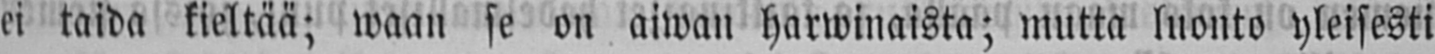ei taida kieltää; waan se on aiwan harwinaista; mutta luonto yleisesti
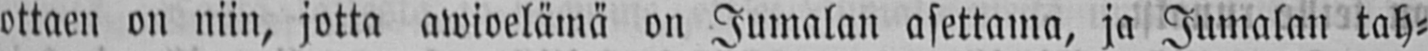ottaen on niin, jotta awioelämä on Jumalan asettama, ja Jumalan tah-
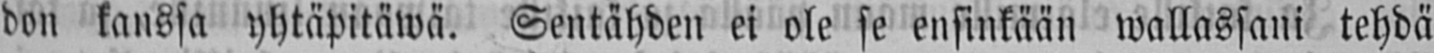don kanssa yhtäpitäwä. Sentähden ei ole se ensinkään wallassani tehdä
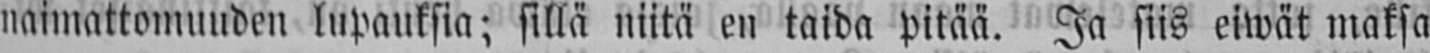naimattomuuden lupauksia; sillä niitä en taida pitää. Ja siis eiwät maksa
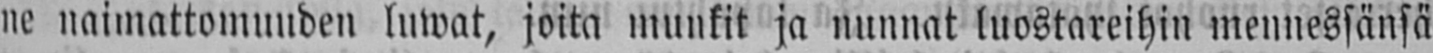ne naimattomuuden luwat, joita munkit ja nunnat luostareihin mennessänsä
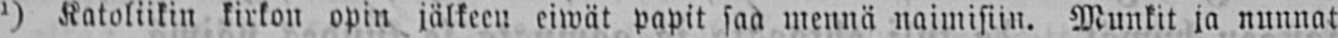¹) Katoliikin kirkon opin jälkeen eiwät papit saa mennä naimisiin. Munkit ja nunnat
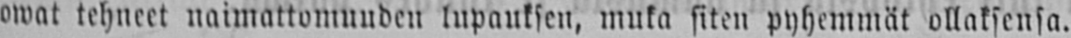owat tehneet naimattomuuden lupauksen, muka siten pyhemmät ollaksensa.
